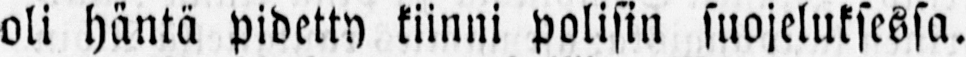oli häntä pidetty kiinni polsin suojeluksessa.
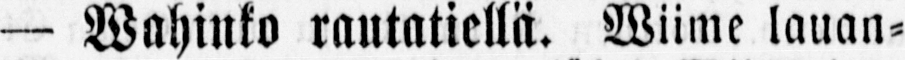— Wahinko rautatiellä. Wiime lauan-
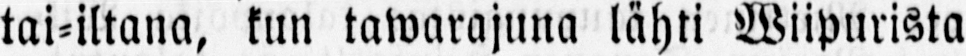tai-iltana, kun tawarajuna lähti Wiipurista
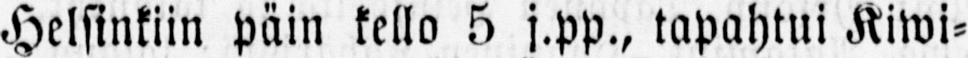Helsinkiin päin kello 5 j.pp., tapahtui Kiwi-
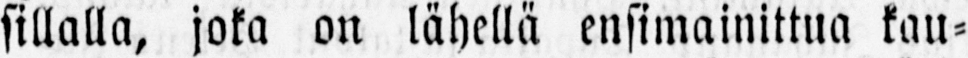sillalla, joka on lähellä ensimainittua kau-
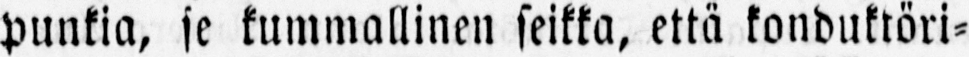punkia, se kummallinen seikka, että konduktöri-
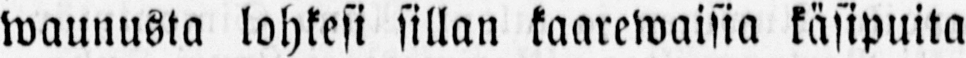waunusta lohkesi sillan kaarewaisia käsipuita
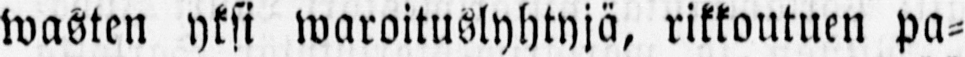wasten yksi waroituslyhtyjä, rikkoutuen pa-
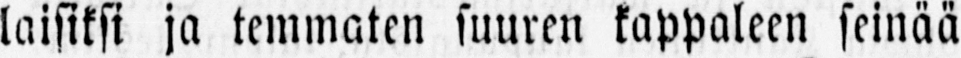laisiksi jo temmaten suuren kappaleen seinää
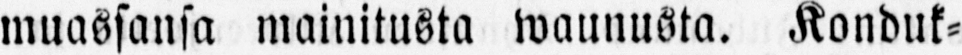muassansa mainitusta waunusta. Konduk-
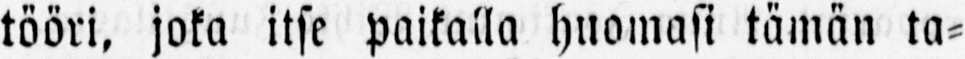tööri. joka itse paikalla huomasi tämän ta-
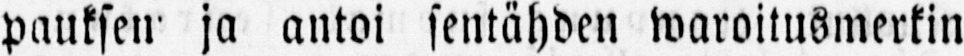pauksen ja antoi sentähden waroitusmerkin
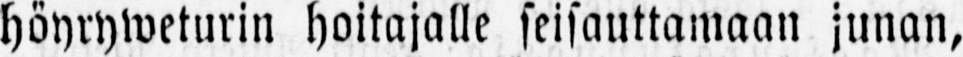höyryweturin hoitajalle seisauttamaan junan,
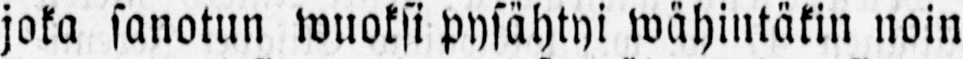joka sanotun wuoksi pysähtyi wähintäkin noin
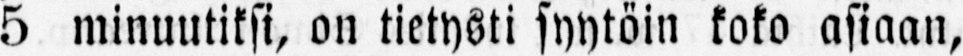5 minuutiksi, on tietysti syytöin koko asiaan,
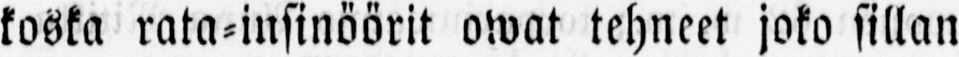koska rata-insinöörit owat tehneet joko sillan
